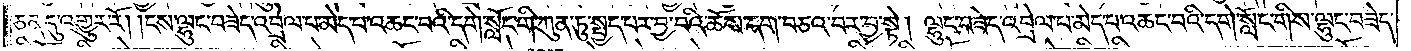ཅན་དུ་འགྱུར་རོ། །ངས་ལྷུང་བཟེད་འབྲེལ་པ་མེད་པ་འཆང་བའི་དགེ་སློང་གི་ཀུན་ཏུ་སྤྱད་པར་བྱ་བའི་ཆོས་དག་བཅའ་བར་བྱ་སྟེ། ལྷུང་བཟེད་འབྲེལ་པ་མེད་པ་འཆང་བའི་དགེ་སློང་གིས་ལྷུང་བཟེད་
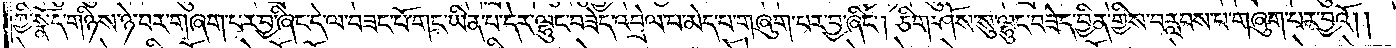ཀྱི་སྣོད་གཉིས་ཉེ་བར་གཞག་པར་བྱ་ཞིང་དེ་ལ་བཟང་པོ་གང་ཡིན་པ་དེར་ལྷུང་བཟེད་འབྲེལ་པ་མེད་པ་གཞུག་པར་བྱ་ཞིང༌། ཅིག་ཤོས་སུ་ལྷུང་བཟེད་བྱིན་གྱིས་བརླབས་པ་གཞུག་པར་བྱའོ། །
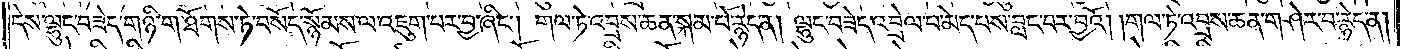དེས་ལྷུང་བཟེད་གཉི་ག་ཐོགས་ཏེ་བསོད་སྙོམས་ལ་འཇུག་པར་བྱ་ཞིང༌། གལ་ཏེ་འབྲས་ཆན་སྐམ་པོ་རྙེད་ན། ལྷུང་བཟེད་འབྲེལ་པ་མེད་པས་བླང་བར་བྱའོ། །གལ་ཏེ་འབྲས་ཆན་གཤེར་བ་རྙེད་ན།
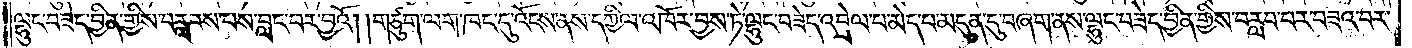ལྷུང་བཟེད་བྱིན་གྱིས་བརླབས་པས་བླང་བར་བྱའོ། །གཙུག་ལག་ཁང་དུ་འོངས་ནས་དཀྱིལ་འཁོར་བྱས་ཏེ་ལྷུང་བཟེད་འབྲེལ་པ་མེད་པ་མདུན་དུ་བཞག་ནས་ལྷུང་བཟེད་བྱིན་གྱིས་བརླབ་པར་བཟའ་བར་
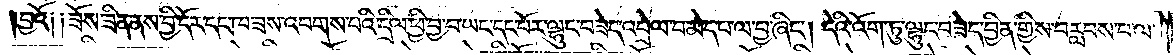བྱའོ༑ ༑ཟོས་ཟིན་ནས་བྱི་དོར་དང་ཁ་ཟས་འབགས་པའི་དྲིལ་ཕྱི་བྱ་བ་ཡང་དང་པོར་ལྷུང་བཟེད་འབྲེལ་པ་མེད་པ་ལ་བྱ་ཞིང༌། དེའི་འོག་ཏུ་ལྷུང་བཟེད་བྱིན་གྱིས་བརླབས་པ་ལ་
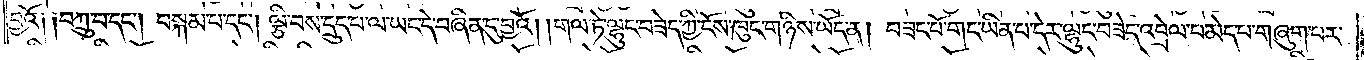བྱའོ༑ ༑བཀྲུ་བ་དང༌། བསྐམ་པ་དང༌། ལྕི་བས་དྲུད་པ་ལ་ཡང་དེ་བཞིན་དུ་བྱའོ། །གལ་ཏེ་ལྷུང་བཟེད་ཀྱི་ངོས་ཁུང་གཉིས་ཡོད་ན། བཟང་པོ་གང་ཡིན་པ་དེར་ལྷུང་བཟེད་འབྲེལ་པ་མེད་པ་གཞུག་པར་
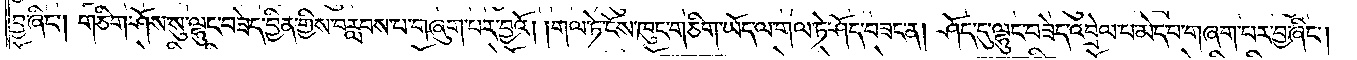བྱ་ཞིང༌། གཅིག་ཤོས་སུ་ལྷུང་བཟེད་བྱིན་གྱིས་བརླབས་པ་གཞུག་པར་བྱའོ། །གལ་ཏེ་ངོས་ཁུང་གཅིག་ཡོད་ལ་གལ་ཏེ་ཤོད་བཟང་ན། ཤོད་དུ་ལྷུང་བཟེད་འབྲེལ་པ་མེད་པ་གཞག་པར་བྱ་ཞིང༌།
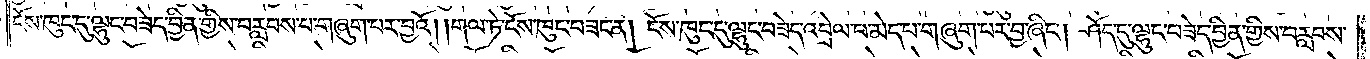ངོས་ཁུང་དུ་ལྷུང་བཟེད་བྱིན་གྱིས་བརླབས་པ་གཞུག་པར་བྱའོ། །གལ་ཏེ་ངོས་ཁུང་བཟང་ན། ངོས་ཁུང་དུ་ལྷུང་བཟེད་འབྲེལ་པ་མེད་པ་གཞུག་པར་བྱ་ཞིང༌། ཤོད་དུ་ལྷུང་བཟེད་བྱིན་གྱིས་བརླབས་
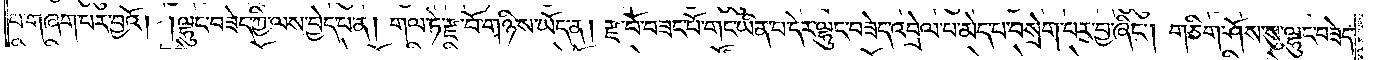པ་གཞག་པར་བྱའོ། །ལྷུང་བཟེད་ཀྱི་ལས་བྱེད་པ་ན། གལ་ཏེ་རྫ་བོ་གཉིས་ཡོད་ན། རྫ་བོ་བཟང་པོ་གང་ཡིན་པ་དེར་ལྷུང་བཟེད་འབྲེལ་པ་མེད་པ་བསྲེག་པར་བྱ་ཞིང༌། གཅིག་ཤོས་སུ་ལྷུང་བཟེད་
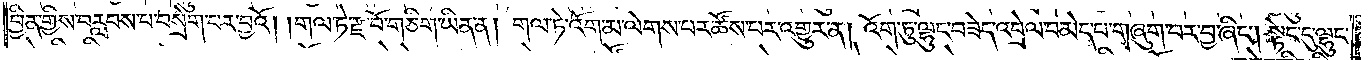བྱིན་གྱིས་བརླབས་པ་བསྲེག་པར་བྱའོ། །གལ་ཏེ་རྫ་བོ་གཅིག་ཡིན་ན། གལ་ཏེ་འོག་མ་ལེགས་པར་ཚོས་པར་འགྱུར་ན། འོག་ཏུ་ལྷུང་བཟེད་འབྲེལ་པ་མེད་པ་གཞུག་པར་བྱ་ཞིང༌། སྟེང་དུ་ལྷུང་
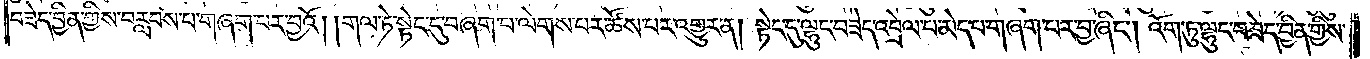བཟེད་བྱིན་གྱིས་བརླབས་པ་གཞག་པར་བྱའོ། །གལ་ཏེ་སྟེང་དུ་བཞག་པ་ལེགས་པར་ཚོས་པར་འགྱུར་ན། སྟེང་དུ་ལྷུང་བཟེད་འབྲེལ་པ་མེད་པ་གཞག་པར་བྱ་ཞིང༌། འོག་ཏུ་ལྷུང་བཟེད་བྱིན་གྱིས་
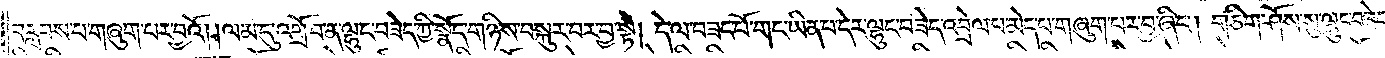བརླབས་པ་གཞུག་པར་བྱའོ། །ལམ་དུ་འགྲོ་བ་ན་ལྷུང་བཟེད་ཀྱི་སྣོད་གཉིས་བསྐུར་བར་བྱ་སྟེ། དེ་ལ་བཟང་པོ་གང་ཡིན་པ་དེར་ལྷུང་བཟེད་འབྲེལ་པ་མེད་པ་གཞུག་པར་བྱ་ཞིང༌། གཅིག་ཤོས་སུ་ལྷུང་བཟེད་
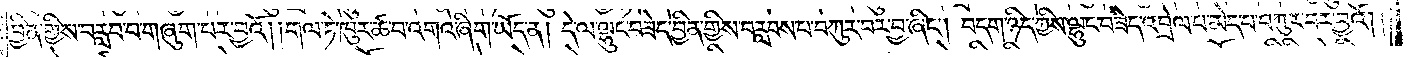བྱིན་གྱིས་བརླབ་པ་གཞུག་པར་བྱའོ། །གལ་ཏེ་ཁུར་ཚ་བ་འགའ་ཞིག་ཡོད་ན། དེ་ལ་ལྷུང་བཟེད་བྱིན་གྱིས་བརླབས་པ་བཀུར་བར་བྱ་ཞིང༌། བདག་ཉིད་ཀྱིས་ལྷུང་བཟེད་འབྲེལ་པ་མེད་པ་བཀུར་བར་བྱའོ། །
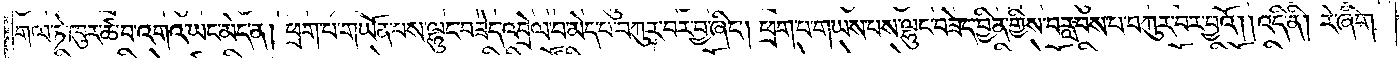གལ་ཏེ་ཁུར་ཚ་བ་འགའ་ཡང་མེད་ན། ཕྲག་པ་གཡོན་པས་ལྷུང་བཟེད་འབྲེལ་པ་མེད་པ་བཀུར་བར་བྱ་ཞིང༌། ཕྲག་པ་གཡས་པས་ལྷུང་བཟེད་བྱིན་གྱིས་བརླབས་པ་བཀུར་བར་བྱའོ། །འདི་ནི། རེ་ཞིག་
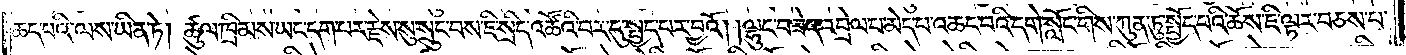ཆད་པའི་ལས་ཡིན་ཏེ། ཚུལ་ཁྲིམས་ཡང་དག་པར་རྗེས་སུ་སྲུང་བས་ཇི་སྲིད་འཚོའི་བར་དུ་སྤྱད་པར་བྱའོ། །ལྷུང་བཟེད་འབྲེལ་པ་མེད་པ་འཆང་བའི་དགེ་སློང་གིས་ཀུན་ཏུ་སྤྱོད་པའི་ཆོས་ཇི་ལྟར་བཅས་པ་
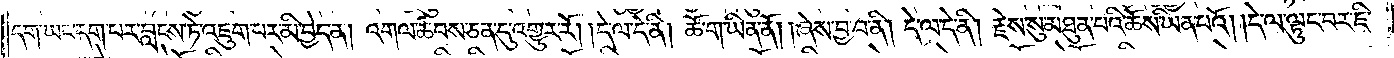དག་ཡང་དག་པར་བླངས་ཏེ་འཇུག་པར་མི་བྱེད་ན། འགལ་ཚབས་ཅན་དུ་འགྱུར་རོ། །དེ་ལ་དེ་ནི། ཆོ་ག་ཡིན་ནོ། །ཞེས་བྱ་བ་ནི། དེ་ལ་དེ་ནི། རྗེས་སུ་མཐུན་པའི་ཆོས་ཡིན་པའོ། །དེ་ལ་ལྟུང་བར་ཇི་
